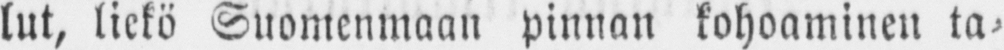lut, liekö Suomenmaan pinnan kohoaminen ta-
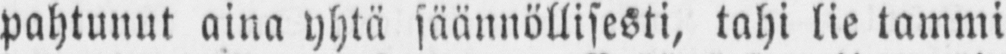pahtunut aina yhtä säännöllisesti, tahi lie tammi
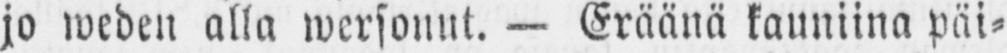jo weden alla wersonut. — Eräänä kauniina päi-
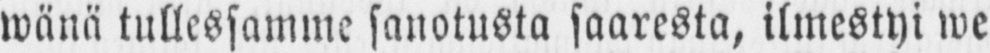wänä tullessamme sanotusta saaresta, ilmestyi we-
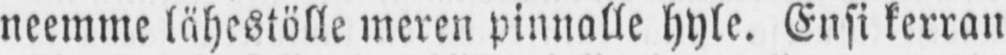neemme lähestölle meren pinnalle hyle. Ensi kerran
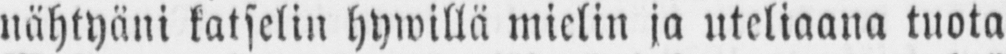nähtyäni katselin hywillä mielin ja uteliaana tuota
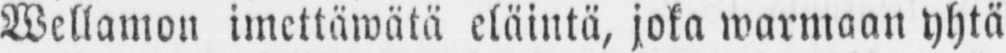Wellamon imettäwätä eläintä, joka warmaan yhtä
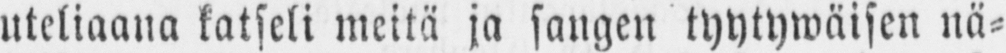uteliaana katseli meitä ja sangen tyytywäisen nä-
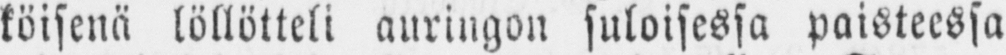köisenä löllötteli auringon suloisessa paisteessa
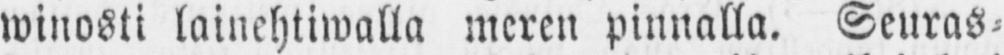winosti lainehtiwalla meren pinnalla. Seuras-
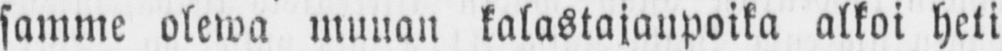samme olewa muuan kalastajanpoika alkoi heti
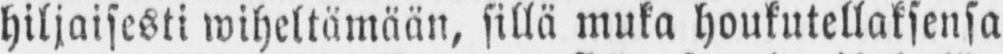hiljaisesti wiheltämään, sillä muka houkutellaksensa
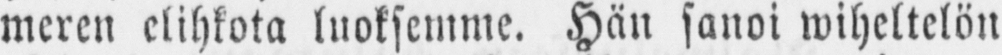meren elihkota luoksemme. Hän sanoi wiheltelön
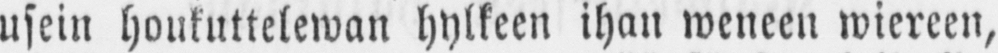usein houkuttelewan hylkeen ihan weneen wiereen,
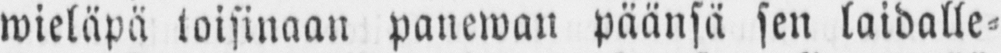wieläpä toisinaan panewan päänsä sen laidalle-
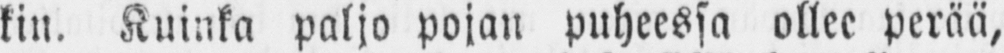kin. Kuinka paljo pojan puheessa ollee perää,
